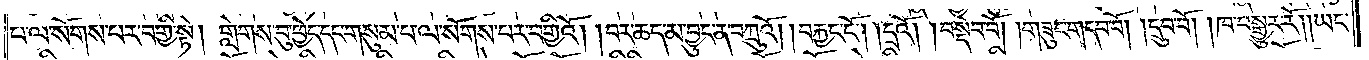པ་ལ་སོགས་པར་བགྱི་སྟེ། གླེགས་བུ་ཕྱེད་དང་གསུམ་པ་ལ་སོགས་པར་བགྱིའོ། །བར་ཆད་མ་བྱུང་ན་བཀྲུའོ། །བརྐྱང་ངོ༌། །དྲའོ། །བསྡེབ་བོ། །གཟུང་གདབ་བོ། །དྲུབ་བོ། །ཁ་བསྒྱུར་རོ། །ཡང་
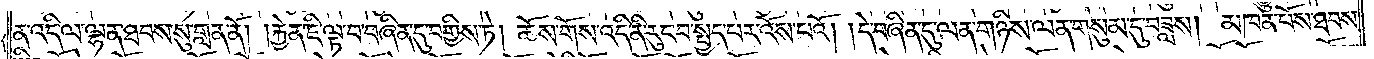ན་འདི་ལ་ལྷན་ཐབས་སུ་གླན་ནོ། །རྐྱེན་ཇི་ལྟ་བ་བཞིན་དུ་བགྱིས་ཏེ། ཆོས་གོས་འདི་ནི་རུང་བ་སྤྱད་པར་འོས་པའོ། །དེ་བཞིན་དུ་ལན་གཉིས་ལན་གསུམ་དུ་བཟླས། མཁན་པོས་ཐབས་
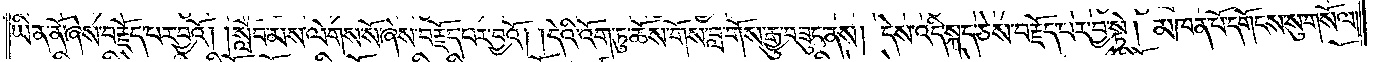ཡིན་ནོ་ཞེས་བརྗོད་པར་བྱའོ། །སློབ་མས་ལེགས་སོ་ཞེས་བརྗོད་པར་བྱའོ། །དེའི་འོག་ཏུ་ཆོས་གོས་བླ་གོས་རྒྱུ་བཟུང་ནས། དེས་འདི་སྐད་ཅེས་བརྗོད་པར་བྱ་སྟེ། མཁན་པོ་དགོངས་སུ་གསོལ།
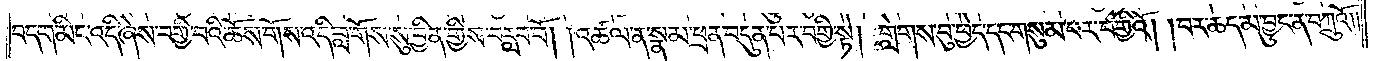བདག་མིང་འདི་ཞེས་བགྱི་བའི་ཆོས་གོས་འདི་བླ་གོས་སུ་བྱིན་གྱིས་བརླབ་བོ། །འཚལ་ན་སྣམ་ཕྲན་བདུན་པར་བགྱི་སྟེ། གླེགས་བུ་ཕྱེད་དང་གསུམ་བར་བགྱིའོ། །བར་ཆད་མ་བྱུང་ན་བཀྲུའོ༎
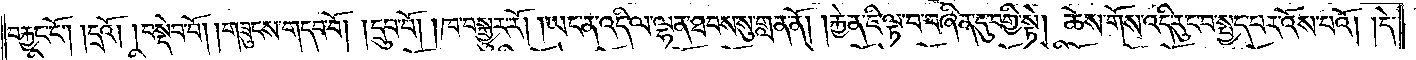བརྐྱང་ངོ༌། །དྲའོ། །བསྡེབ་བོ། །གཟུངས་གདབ་བོ། །དྲུབ་བོ། །ཁ་བསྒྱུར་རོ། །ཡང་ན་འདི་ལ་ལྷན་ཐབས་སུ་གླན་ནོ། །རྐྱེན་ཇི་ལྟ་བ་བཞིན་དུ་བགྱི་སྟེ། ཆོས་གོས་འདི་རུང་བ་སྤྱད་པར་འོས་པའོ། །དེ་
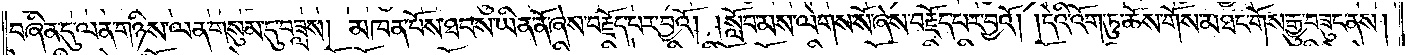བཞིན་དུ་ལན་གཉིས་ལན་གསུམ་དུ་བཟླས། མཁན་པོས་ཐབས་ཡིན་ནོ་ཞེས་བརྗོད་པར་བྱའོ། །སློབ་མས་ལེགས་སོ་ཞེས་བརྗོད་པར་བྱའོ། །དེའི་འོག་ཏུ་ཆོས་གོས་མཐང་གོས་རྒྱུ་བཟུང་ནས།
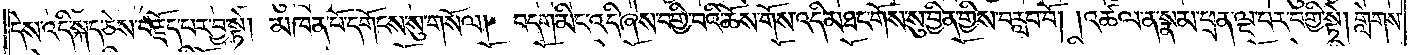དེས་འདི་སྐད་ཅེས་བརྗོད་པར་བྱ་སྟེ། མཁན་པོ་དགོངས་སུ་གསོལ། བདག་མིང་འདི་ཞེས་བགྱི་བའི་ཆོས་གོས་འདི་མཐང་གོས་སུ་བྱིན་གྱིས་བརླབ་བོ། །འཚལ་ན་སྣམ་ཕྲན་ལྔ་པར་བགྱི་སྟེ། གླེགས་
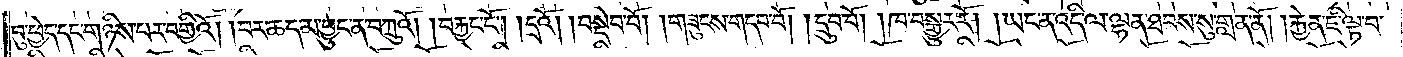བུ་ཕྱེད་དང་གཉིས་པར་བགྱིའོ། །བར་ཆད་མ་བྱུང་ན་བཀྲུའོ། །བརྐྱང་ངོ༌། །དྲའོ། །བསྡེབ་བོ། །གཟུངས་གདབ་བོ། །དྲུབ་བོ། །ཁ་བསྒྱུར་རོ། །ཡང་ན་འདི་ལ་ལྷན་ཐབས་སུ་གླན་ནོ། །རྐྱེན་ཇི་ལྟ་བ་
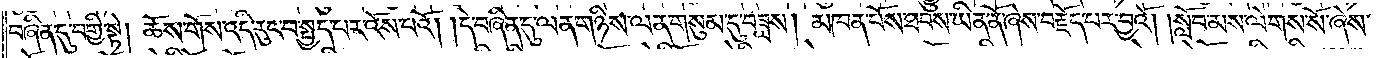བཞིན་དུ་བགྱི་སྟེ། ཆོས་གོས་འདི་རུང་བ་སྤྱད་པར་འོས་པའོ། །དེ་བཞིན་དུ་ལན་གཉིས་ལན་གསུམ་དུ་བཟླས། མཁན་པོས་ཐབས་ཡིན་ནོ་ཞེས་བརྗོད་པར་བྱའོ། །སློབ་མས་ལེགས་སོ་ཞེས་
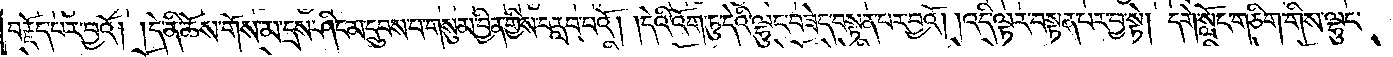བརྗོད་པར་བྱའོ། །དེ་ནི་ཆོས་གོས་མ་དྲས་ཤིང་མ་དྲུབས་པ་གསུམ་བྱིན་གྱིས་བརླབ་པའོ། །དེའི་འོག་ཏུ་དེའི་ལྷུང་བཟེད་བསྟན་པར་བྱའོ། །འདི་ལྟར་བསྟན་པར་བྱ་སྟེ། དགེ་སློང་གཅིག་གིས་ལྷུང་
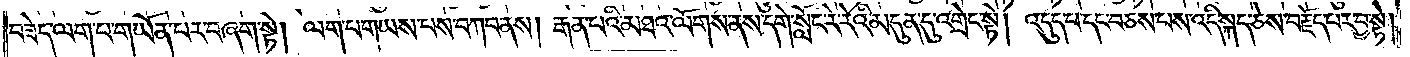བཟེད་ལག་པ་གཡོན་པར་བཞག་སྟེ། ལག་པ་གཡས་པས་བཀབ་ནས། རྒན་པའི་མཐའ་ལོགས་ནས་དགེ་སློང་རེ་རེའི་མདུན་དུ་འགྲེང་སྟེ། འདུད་པ་དང་བཅས་པས་འདི་སྐད་ཅེས་བརྗོད་པར་བྱ་སྟེ།
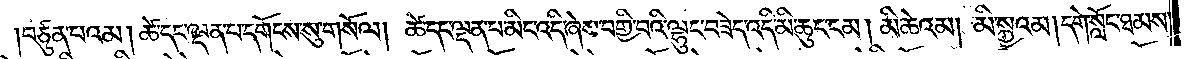བཙུན་པའམ། ཚེ་དང་ལྡན་པ་དགོངས་སུ་གསོལ། ཚེ་དང་ལྡན་པ་མིང་འདི་ཞེས་བགྱི་བའི་ལྷུང་བཟེད་འདི་མི་ཆུང་ངམ། མི་ཆེའམ། མི་སྐྱའམ། དགེ་སློང་ཐམས་
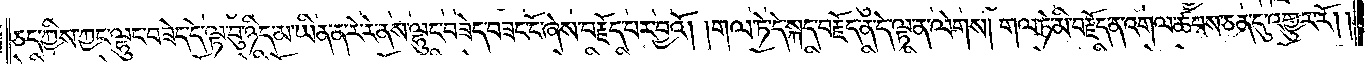ཅད་ཀྱིས་ཀྱང་ལྷུང་བཟེད་དེ་ལྟ་བུ་ཉིད་མ་ཡིན་ན་རེ་རེ་ནས་ལྷུང་བཟེད་བཟང་ངོ་ཞེས་བརྗོད་པར་བྱའོ། །གལ་ཏེ་དེ་སྐད་བརྗོད་ན་དེ་ལྟ་ན་ལེགས། གལ་ཏེ་མི་བརྗོད་ན་འགལ་ཚབས་ཅན་དུ་འགྱུར་རོ། །
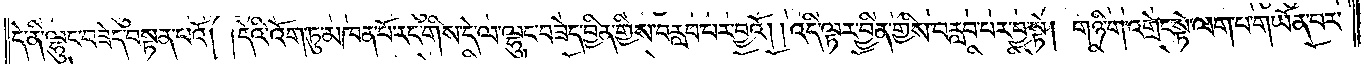དེ་ནི་ལྷུང་བཟེད་བསྟན་པའོ། །དེའི་འོག་ཏུ་མཁན་པོ་རང་གིས་དེ་ལ་ལྷུང་བཟེད་བྱིན་གྱིས་བརླབ་པར་བྱའོ། །འདི་ལྟར་བྱིན་གྱིས་བརླབ་པར་བྱ་སྟེ། གཉི་ག་འགྲེང་སྟེ་ལག་པ་གཡོན་པར་
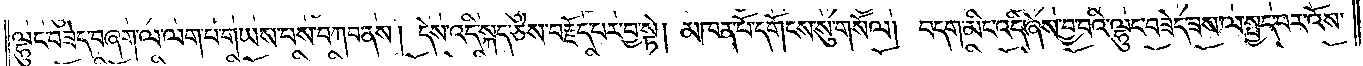ལྷུང་བཟེད་བཞག་ལ་ལག་པ་གཡས་པས་བཀབ་ནས། དེས་འདི་སྐད་ཅེས་བརྗོད་པར་བྱ་སྟེ། མཁན་པོ་དགོངས་སུ་གསོལ། བདག་མིང་འདི་ཞེས་བྱ་བའི་ལྷུང་བཟེད་ཟས་ལ་སྤྱད་པར་འོས་
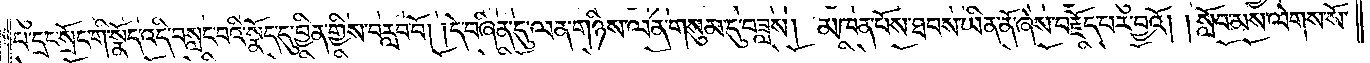པ་དྲང་སྲོང་གི་སྣོད་འདི་བསླང་བའི་སྣོད་དུ་བྱིན་གྱིས་བརླབ་བོ། །དེ་བཞིན་དུ་ལན་གཉིས་ལན་གསུམ་དུ་བཟླས། མཁན་པོས་ཐབས་ཡིན་ནོ་ཞེས་བརྗོད་པར་བྱའོ། །སློབ་མས་ལེགས་སོ་
